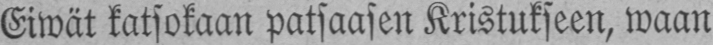Eiwät katsokaan patsaasen Kristukseen, waan
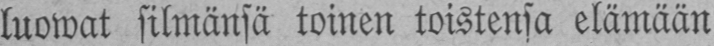luowat silmänsä toinen toistensa elämään
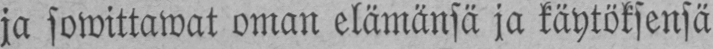ja sowittawat oman elämänsä ja käytöksensä
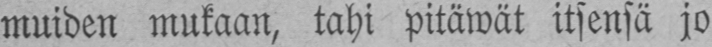muiden mukaan, tahi pitäwät itsensä jo
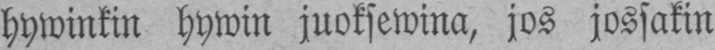hywinkin hywin juoksewina, jos jossakin
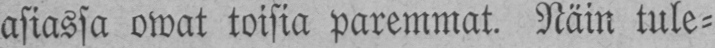asiassa owat toisia paremmat. Näin tule-
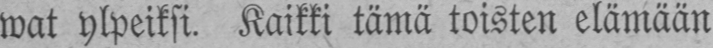wat ylpeiksi. Kaikki tämä toisten elämään
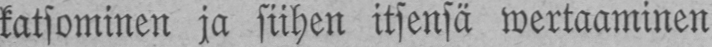katsominen ja siihen itsensä wertaaminen
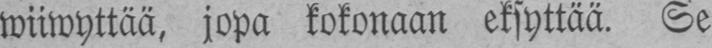wiiwyttää, jopa kokonaan eksyttää. Se
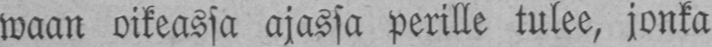waan oikeassa ajassa perille tulee, jonka
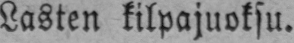Lasten kilpajuoksu.
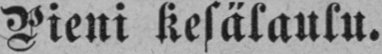Pieni Kesälaulu.
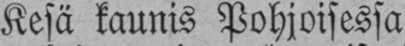Kesä kaunis Pohjoisessa
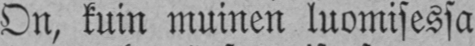On, kuin muinen luomisessa
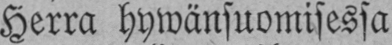Herra hywänsuomisessa
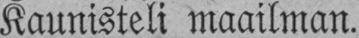Kaunisteli maailman.
